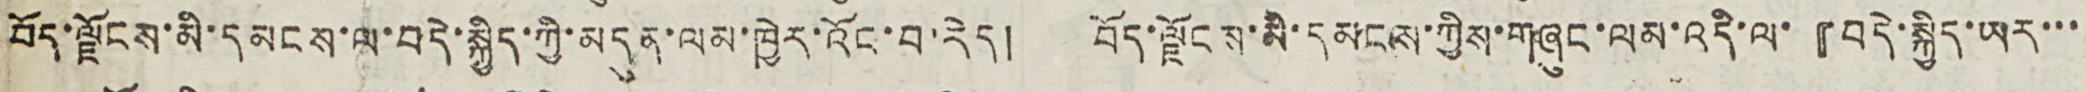བོད་ལྗོངས་མི་དམངས་ལ་བདེ་སྐྱོད་ཀྱི་མདུན་ལམ་ཁྱེར་འོང་བ་རེད། བོད་ལྗོངས་མི་དམངས་ཀྱིས་གཞུང་ལམ་འིད་ལ་『བདེ་སྐྱོད་ཡར་་་
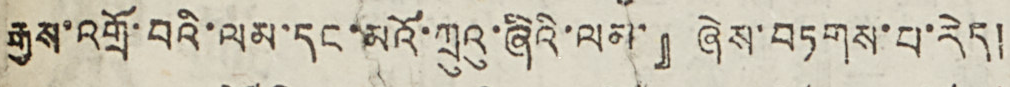རྒྱས་འགྲོ་བའི་ལམ་དང་མའོ་ཀྲུའུ་ཞིའི་ལམ་』ཞེས་བཏགས་པ་རེད།
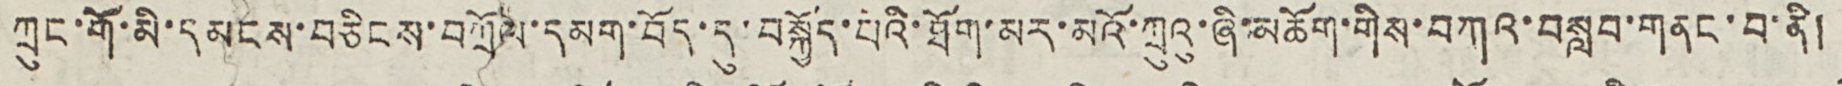ཀྲུང་གོ་མི་དམངས་བཅིངས་བཀྲོལ་དམག་བོད་དུ་བསྐྱོད་པའི་ཐོག་མར་མའོ་ཀྲུའུ་ཞི་མཆོག་གིས་བཀའ་བསླབ་གནང་བ་ནི།
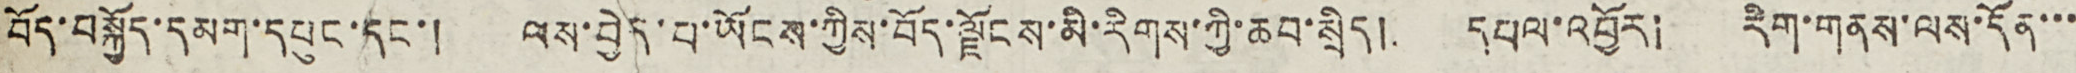བོད་བསྐྱོད་དམག་དཔུང་དང་། ལས་བྱེད་པ་ཡོངས་ཀྱིས་བོད་ལྗོངས་མི་རིགས་ཀྱི་ཆབ་སྲིད། དཔལ་འབྱོར། རིག་གནས་ལས་དོན་་་
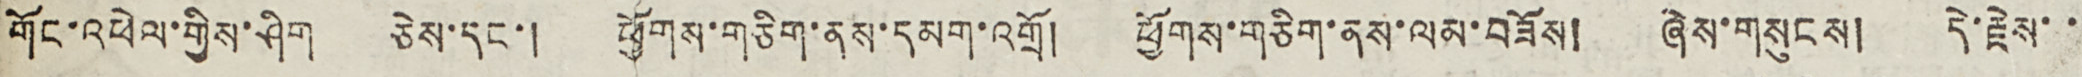གོང་འཕེལ་གྱིས་ཤིག ཅེས་དང་། ཕྱོགས་གཅིག་ནས་དམག་འགྲོ། ཕྱོགས་གཅིག་ནས་ལམ་བཟོས། ཞེས་གསུངས། དེ་རྗེས་་
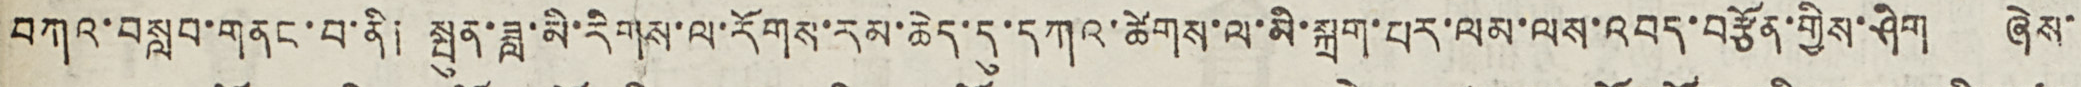བཀའ་བསླབ་གནང་བ་ནི། སྤུན་ཟླ་མི་རིགས་ལ་རོགས་རམ་ཆེད་དུ་དཀའ་ཚེགས་ལ་མི་སྐྲག་པར་ལམ་ལས་འབད་བརྩོན་གྱིས་ཤིག ཞེས་
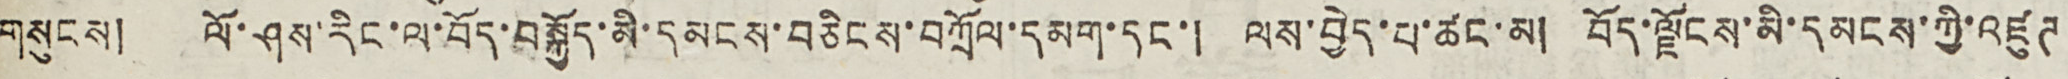གསུངས། ལོ་ཤས་རིང་ལ་བོད་བསྐྱོད་མི་དམངས་བཅིངས་བཀྲོལ་དམག་དང་། ལས་བྱེད་པ་ཚང་མ། བོད་ལྗོངས་མི་དམངས་ཀྱི་འཛུཊ
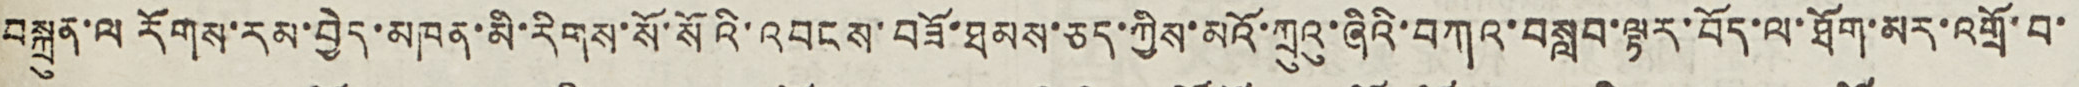བསྐྲུན་ལ རོགས་རམ་བྱེད་མཁན་མི་རིགས་སོ་སོའི་འབངས་བཟོ་ཐམས་ཅད་ཀྱིས་མའོ་ཀྲུའུ་ཞིའི་བཀའ་བསླབ་ལྟར་བོད་ལ་ཐོག་མར་འགྲོ་བ་
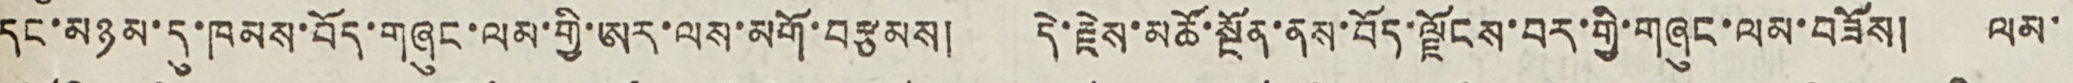དང་མཉམ་དུ་ཁམས་བོད་གཞུང་ལམ་གྱི་ཨར་ལས་མགོ་བརྩམས། དེ་རྗེས་མཚོ་སྔོན་ནས་བོད་ལྗོངས་བར་གྱི་གཞུང་ལམ་བཟོས། ལམ་
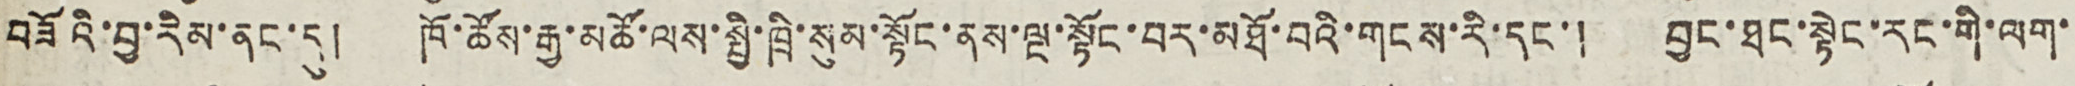བཟོའི་བྱ་རིམ་ནང་དུ། ཁོ་ཚོས་རྒྱ་མཚོ་ལས་སྤྱི་ཁྲི་སུམ་སྟོང་ནས་ལྔ་སྟོང་བར་མཐོ་བའི་གངས་རི་དང་། བྱང་ཐང་སྟེང་རང་གི་ལག་
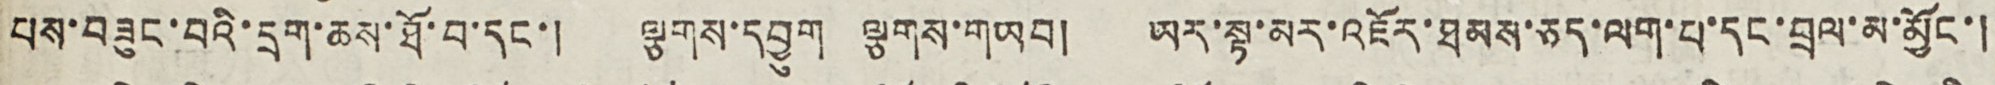པས་བཟུང་བའི་དྲག་ཆས་ཐོ་བ་དང་། ལྕགས་དབྱུག ལྕགས་གཡབ། ཡར་སྟ་མར་འཇོར་ཐམས་ཅད་ལག་པ་དང་བྲལ་མ་མྱོང་།
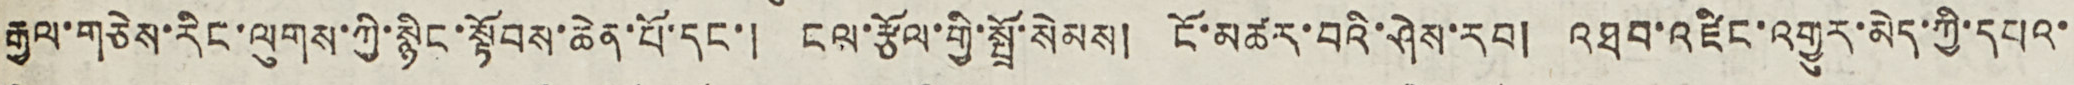རྒྱལ་གཅེས་རིང་ལུགས་ཀྱི་སྙིང་སྟོབས་ཆེན་པོ་དང་། ངལ་རྩོལ་གྱི་སྤྲོ་སེམས། ངོ་མཚར་བའི་ཤེས་རབ། འཐབ་འཛིང་འགྱུར་མེད་ཀྱི་དཔའ་
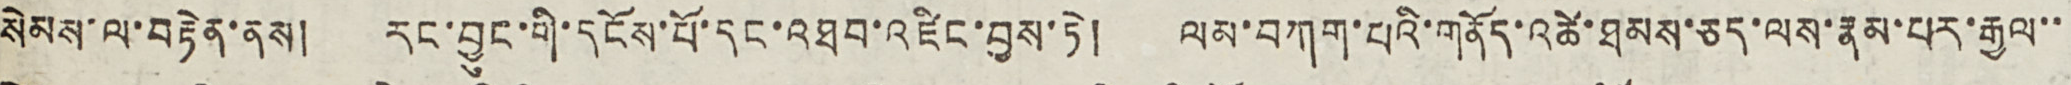སེམས་ལ་བརྟེན་ནས། རང་བྱུང་གི་དངོས་པོ་དང་འཐབ་འཛིང་བྱས་ཏེ། ལམ་བཀག་པའི་གནོད་འཚེ་ཐམས་ཅད་ལས་རྣམ་པར་རྒྱལ་་
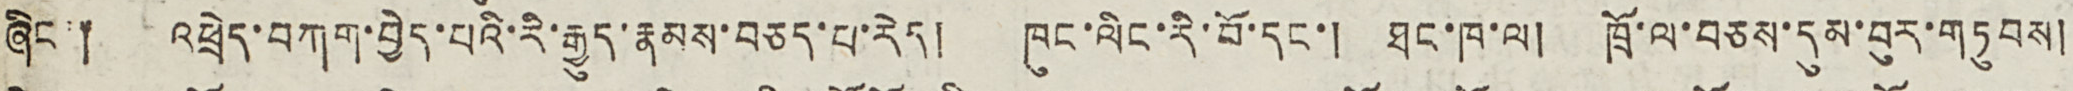ཞིང་། འཕྲེད་བཀག་བྱེད་པའི་རི་རྒྱུད་རྣམས་བཅད་པ་རེད། ཁུང་ལིང་རི་བོ་དང་། ཐང་ཁ་ལ། ཁྲོ་ལ་བཅས་དུམ་བུར་གཏུབས།
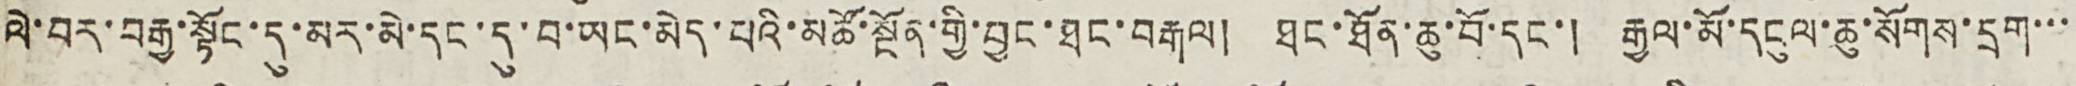ལེ་བར་བརྒྱ་སྟོང་དུ་མར་མེ་དང་དུ་བ་ཡང་མེད་པའི་མཚོ་སྔོན་གྱི་བྱང་ཐང་བརྒལ། ཐང་ཐོན་ཆུ་བོ་དང་། རྒྱལ་མོ་དངུལ་ཆུ་སོགས་དྲག་་་
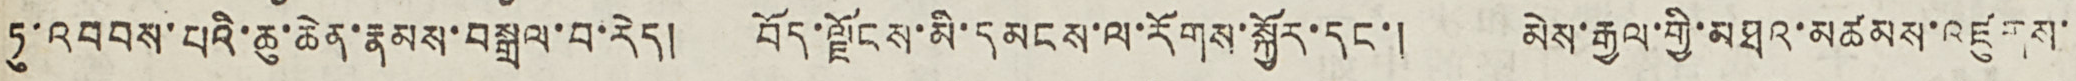ཏུ་འབབས་པའི་ཆུ་ཆེན་རྣམས་བསྒྲལ་བ་རེད། བོད་ལྗོངས་མི་དམངས་ལ་རོགས་སྐྱོར་དང་། མེས་རྒྱལ་གྱི་མཐར་མཚམས་འཛུགས་
